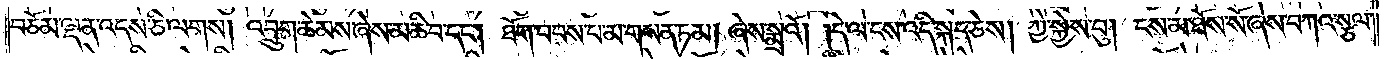བཅོམ་ལྡན་འདས་ཅི་ལགས། འབྲུག་ཆེམས་ཞེས་མཆི་བ་དང༌། ཐོག་བབས་པ་མ་གསན་ཏམ། ཞེས་སྨྲའོ། །དེ་ལ་ངས་འདི་སྐད་ཅེས། ཀྱེ་སྐྱེས་བུ། ངས་མ་ཐོས་སོ་ཞེས་བཀའ་སྩལ་
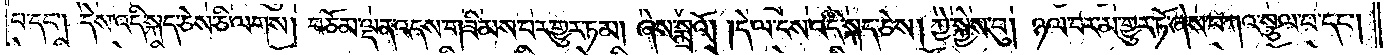པ་དང༌། དེས་འདི་སྐད་ཅེས་ཅི་ལགས། བཅོམ་ལྡན་འདས་གཟིམས་པར་གྱུར་ཏམ། ཞེས་སྨྲའོ། །དེ་ལ་ངས་འདི་སྐད་ཅེས། ཀྱེ་སྐྱེས་བུ། ཉལ་བར་མ་གྱུར་ཏོ་ཞེས་བཀའ་སྩལ་པ་དང༌།
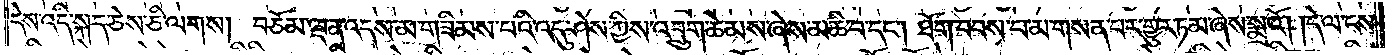དེས་འདི་སྐད་ཅེས་ཅི་ལགས། བཅོམ་ལྡན་འདས་མ་གཟིམས་པའི་འདུ་ཤེས་ཀྱིས་འབྲུག་ཆེམས་ཞེས་མཆི་བ་དང༌། ཐོག་བབས་པ་མ་གསན་པར་གྱུར་ཏམ་ཞེས་སྨྲའོ། །དེ་ལ་ངས་
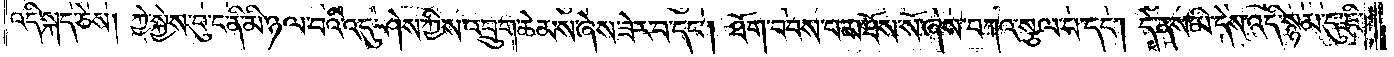འདི་སྐད་ཅེས། ཀྱེ་སྐྱེས་བུ་ང་ནི་མི་ཉལ་བའི་འདུ་ཤེས་ཀྱིས་འབྲུག་ཆེམས་ཞེས་ཟེར་བ་དང༌། ཐོག་བབས་པ་མ་ཐོས་སོ་ཞེས་བཀའ་སྩལ་པ་དང༌། དེ་ནས་མི་དེས་འདི་སྙམ་དུ་ཇི་
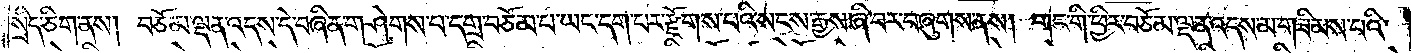སྲིད་ཅིག་ནས། བཅོམ་ལྡན་འདས་དེ་བཞིན་གཤེགས་པ་དགྲ་བཅོམ་པ་ཡང་དག་པར་རྫོགས་པའི་སངས་རྒྱས་ཞི་བར་བཞུགས་ནས། གང་གི་ཕྱིར་བཅོམ་ལྡན་འདས་མ་གཟིམས་པའི་
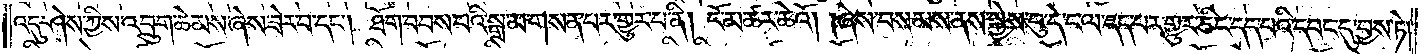འདུ་ཤེས་ཀྱིས་འབྲུག་ཆེམས་ཞེས་ཟེར་བ་དང༌། ཐོག་བབས་པའི་སྒྲ་མ་གསན་པར་གྱུར་པ་ནི། ངོ་མཚར་ཆེའོ། །ཞེས་བསམས་ནས་སྐྱེས་བུ་དེ་ང་ལ་དད་པར་གྱུར་ཅིང་དད་པའི་དབང་དུ་བྱས་ཏེ།
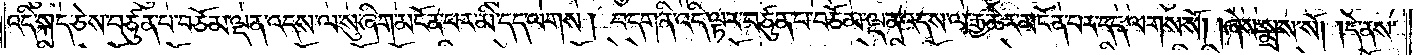འདི་སྐད་ཅེས་བཙུན་པ་བཅོམ་ལྡན་འདས་ལ་སུ་ཞིག་མངོན་པར་མི་དད་ལགས། བདག་ནི་འདི་ལྟར་བཙུན་པ་བཅོམ་ལྡན་འདས་ལ་རྒྱ་ཆེར་མངོན་པར་དད་ལགས་སོ། །ཞེས་སྨྲས་སོ། །དེ་ནས་
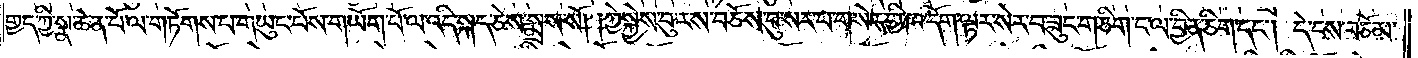གྱད་ཀྱི་སྣ་ཆེན་པོ་ལ་གཏོགས་པ་གཡུང་པོས་གཡོག་པོ་ལ་འདི་སྐད་ཅེས་སྨྲས་སོ། །ཀྱེ་སྐྱེས་བུ་རས་བཅོས་བུ་སར་པ་གསེར་གྱི་ཁ་དོག་ལྟར་སེར་བཟུང་གཅིག་ང་ལ་བྱིན་ཅིག་དང༌། དེ་ངས་བཅོམ་
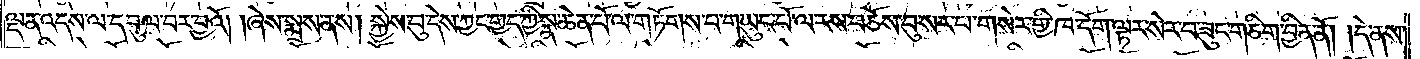ལྡན་འདས་ལ་དབུལ་བར་བྱའོ། །ཞེས་སྨྲས་ནས། སྐྱེས་བུ་དེས་ཀྱང་གྱད་ཀྱི་སྣ་ཆེན་པོ་ལ་གཏོགས་པ་གཡུང་པོ་ལ་རས་བཅོས་བུ་སར་པ་གསེར་གྱི་ཁ་དོག་ལྟར་སེར་བ་ཟུང་གཅིག་བྱིན་ནོ། །དེ་ནས་
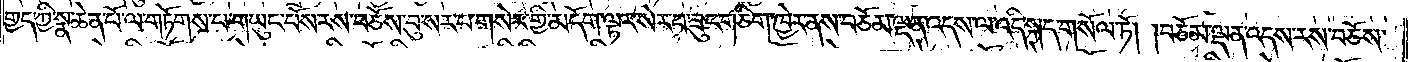གྱད་ཀྱི་སྣ་ཆེན་པོ་ལ་གཏོགས་པ་གཡུང་པོས་རས་བཅོས་བུ་སར་པ་གསེར་གྱི་མདོག་ལྟར་སེར་བ་ཟུང་གཅིག་ཁྱེར་ནས་བཅོམ་ལྡན་འདས་ལ་འདི་སྐད་གསོལ་ཏོ། །བཅོམ་ལྡན་འདས་རས་བཅོས་
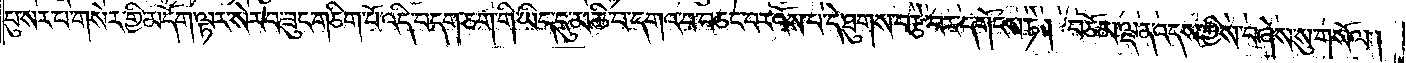བུ་སར་པ་གསེར་གྱི་མདོག་ལྟར་སེར་བ་ཟུང་གཅིག་པོ་འདི་བདག་ཅག་གི་ཡིད་དུ་མཆི་བ་དགའ་བ་བཅང་བར་འོས་པ་དེ་ཐུགས་བརྩེ་བར་དགོངས་ཏེ། བཅོམ་ལྡན་འདས་ཀྱིས་བཞེས་སུ་གསོལ།
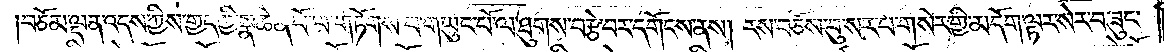བཅོམ་ལྡན་འདས་ཀྱིས་གྱད་ཀྱི་སྣ་ཆེན་པོ་ལ་གཏོགས་པ་གཡུང་པོ་ལ་ཐུགས་བརྩེ་བར་དགོངས་ནས། རས་བཅོས་བུ་སར་པ་གསེར་གྱི་མདོག་ལྟར་སེར་བ་ཟུང་
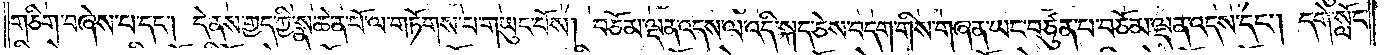གཅིག་བཞེས་པ་དང༌། དེ་ནས་གྱད་ཀྱི་སྣ་ཆེན་པོ་ལ་གཏོགས་པ་གཡུང་པོས། བཅོམ་ལྡན་འདས་ལ་འདི་སྐད་ཅེས་བདག་གིས་གཞན་ཡང་བཙུན་པ་བཅོམ་ལྡན་འདས་དང༌། དགེ་སློང་
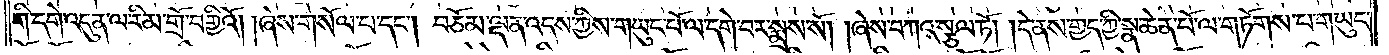གི་དགེ་འདུན་ལ་རིམ་གྲོ་བགྱིའོ། །ཞེས་གསོལ་པ་དང༌། བཅོམ་ལྡན་འདས་ཀྱིས་གཡུང་པོ་ལ་དགེ་བར་སྨྲས་སོ། །ཞེས་བཀའ་སྩལ་ཏོ། །དེ་ནས་གྱད་ཀྱི་སྣ་ཆེན་པོ་ལ་གཏོགས་པ་གཡུང་
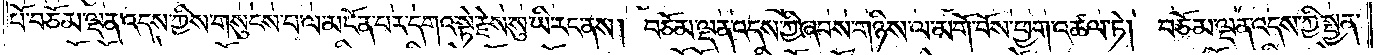པོ་བཅོམ་ལྡན་འདས་ཀྱིས་གསུངས་པ་ལ་མངོན་པར་དགའ་སྟེ་རྗེས་སུ་ཡི་རང་ནས། བཅོམ་ལྡན་འདས་ཀྱི་ཞབས་གཉིས་ལ་མགོ་བོས་ཕྱག་འཚལ་ཏེ། བཅོམ་ལྡན་འདས་ཀྱི་སྤྱན་
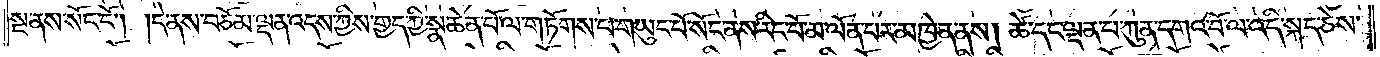སྔ་ནས་སོང་ངོ༌། །དེ་ནས་བཅོམ་ལྡན་འདས་ཀྱིས་གྱད་ཀྱི་སྣ་ཆེན་པོ་ལ་གཏོགས་པ་གཡུང་པོ་སོང་ནས་རིང་པོ་མ་ལོན་པར་མཁྱེན་ནས། ཚེ་དང་ལྡན་པ་ཀུན་དགའ་བོ་ལ་འདི་སྐད་ཅེས་
